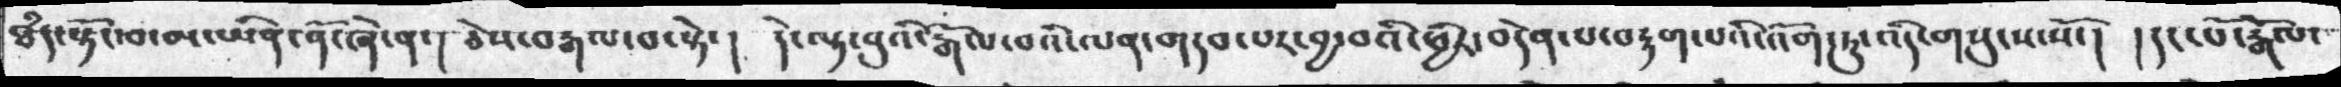ཐཾད་སྟོང་བ་མ་ཡིན་ནོ་ཞེ་ན་། ཅེས་བརྒལ་བ་སྟེ་།  དེ་ལྟ་བུའི་རྒོལ་བའི་ལན་གདབ་པར་བྱ་བའི་ཕྱིར་བདེན་པ་བརྟག་པའི་འོག་ཏུ་འདི་གསུངས་སོ་། །དང་པོ་རྒོལ་
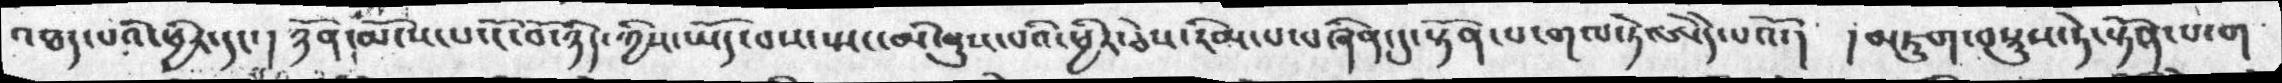འཐད་པའི་ཕྱིར་དང་། ཉོན་མོངས་པ་ངོ་བོ་ཉིད་ཀྱིས་ཡོད་པས་སྤང་མི་ནུས་པའི་ཕྱིར་ཅེས་རིམ་པ་བཞིན་དུ་སྟོན་པ་གལ་ཏེ་ཨེདེ་པའོ་།  །མཇུག་བསྡུས་ཏེ་སྟོན་པ་ག
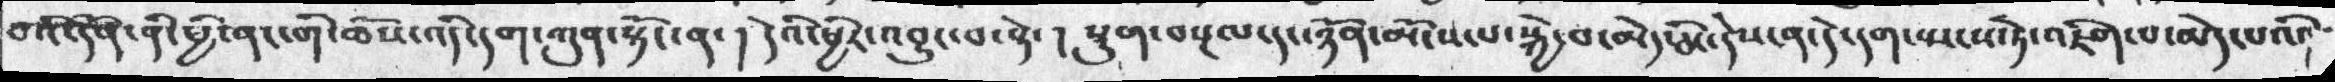བའི་དོན་ནི་ཕྱི་ནང་གི་ཆོས་འདི་དག་ཀུན་སྟོང་ན་།  དེའི་ཕྱིར་འབྱུང་བ་སྟེ་། སྡུག་བསྔལ་དང་ཉོན་མོངས་པ་སྐྱེ་བ་མེད་ཅིང་དེས་ན་དེ་དག་སྤངས་ཏེ་འཇིག་པ་མེད་པའི་
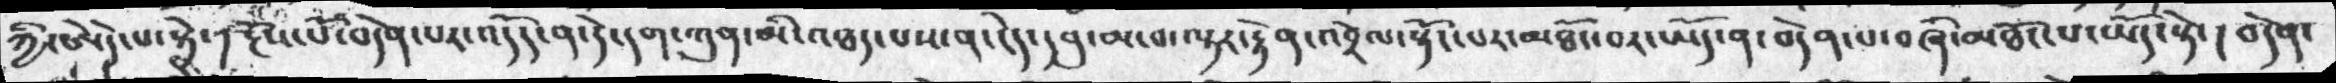ཀྱི་ཨེདེ་པ་སྟེ་། རྔོས་པོ་བདེན་པར་འདོད་ན་དེ་དག་ཀུན་མི་འཐད་པས་ན་ངེད་དབུ་མ་བ་ལྟར་རྟེན་འབྲེལ་སྟོང་པར་མཐོང་བར་ཡོད་ན་བདེན་པ་བཞི་མཐོང་པ་ཡོད་སྟེ་། བདེན་
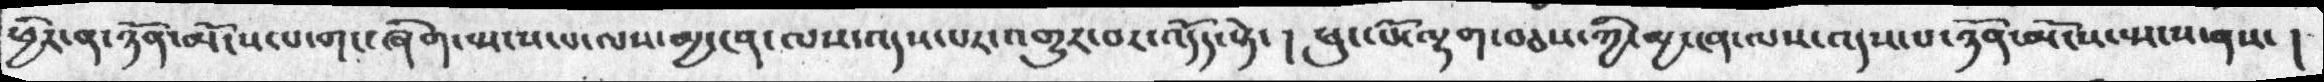ཕྱིར་ན་ཉོན་མོངས་པ་གང་ཞིག་སྤངས་པ་ལས་མྱ་ངན་ལས་འདས་པར་འགྱུར་བར་འདོད་སྟེ་། ཕུང་པོ་ལྷག་བཅས་ཀྱི་མྱ་ངན་ལས་འདས་པ་ཉོན་མོངས་སྤངས་ནས་ །
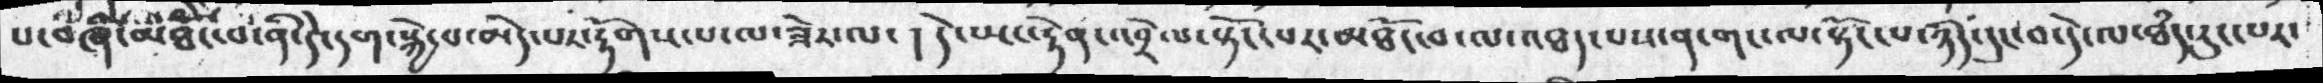པ་བཞི་མཐོང་བ་ནི་དེ་དག་སྐྱེ་བ་མེད་པར་རྟོགས་པ་ལ་ཟེར་ལ་།  དེ་ཡང་རྟེན་འབྲེལ་སྟོང་པར་མཐོང་བ་ལ་འཐད་པས་ན་གང་ལ་སྟོང་པ་ཉིད་རུང་བ་དེ་ལ་ཐཾད་རུང་པར་
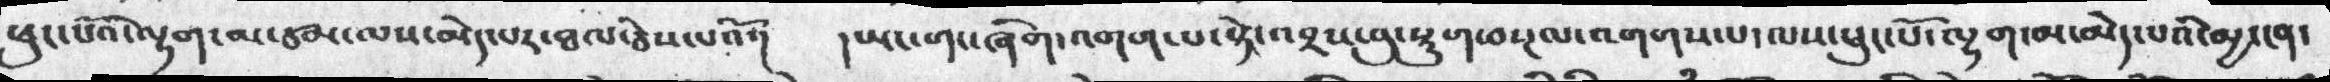ཕུང་པོའི་ལྷག་མ་ཙམ་ལས་མེད་པར་ཐལ་ཅེས་པའོ་།  །ཡང་གང་ཞིག་འགག་པ་སྟེ་འབྲས་བུ་སྡུག་བསྔལ་འགགས་པ་ལས་ཕུང་པོ་ལྷག་མ་མེད་པའི་མྱ་ངན་
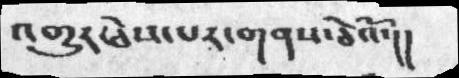འགྱུར་ཅེས་པར་གནས་ཅེའོ་།།
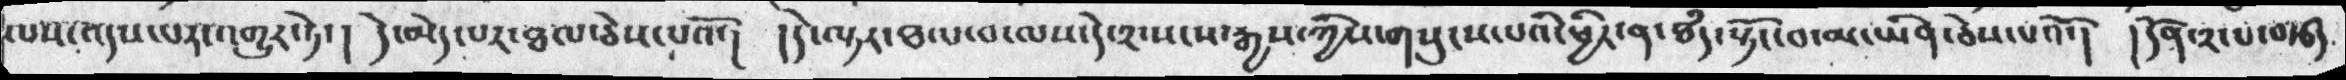ལས་འདས་པར་འགྱུར་ཏེ་། དེ་མེད་པར་ཐལ་ཅེས་པའོ་།  །དེ་ལྟར་ཐལ་བ་ལས་དེ་༢་སངས་རྒྱས་ཀྱིས་གསུངས་པའི་ཕྱིར་ན་ཐཾད་སྟོང་བ་མ་ཡིན་ཅེས་པའོ་། །དོན་༢་པ་བརྩད
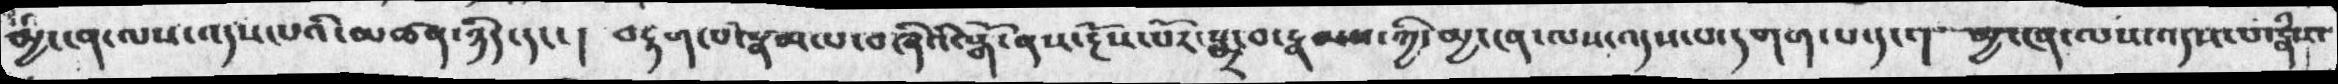མྱ་ངན་ལས་འདས་པའི་མཚན་ཉིད་དང་།  བརྟག་པ་རྣམ་པ་བཞིའི་སྒོ་ནས་རྔོས་པོར་སྨྲ་བ་རྣམས་ཀྱི་མྱ་ངན་ལས་འདས་པ་དགག་པ་དང་།  མྱ་ངན་ལས་འདས་པ་རྣཾས་
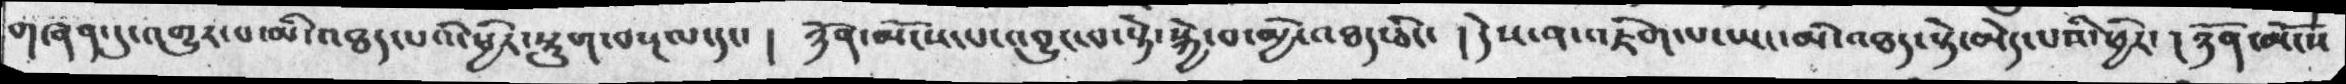གཞན་དུ་འགྱུར་བ་མི་འཐད་པའི་ཕྱིར་སྡུག་བསྔལ་དང་།  ཉོན་མོངས་པ་འབྱུང་བ་སྟེ་སྐྱེ་བ་མྱི་འཐད་ཅིང་།  དེས་ན་འཇིག་པ་ཡང་མི་འཐད་སྟེ་མེད་པའི་ཕྱིར་། ཉོན་མོངས
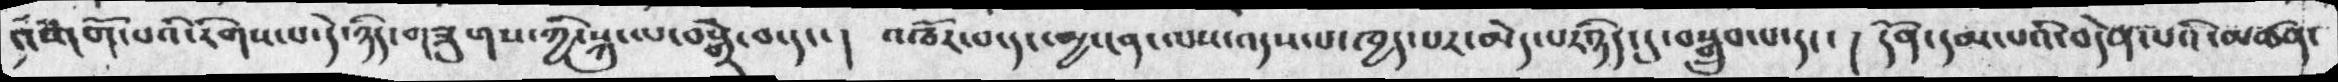འགོག་པའི་རིགས་པ་དེ་ཉིད་གཟུགས་ཀྱི་སྐུ་ལ་བསྒྲེ་བ་དང་།  འཁོར་བ་དང་མྱ་ངན་ལས་འདས་པ་ཁྱད་པར་མེད་པར་ཉིད་དུ་བསྒྲུབ་པ་དང་། དོན་དམ་པའི་བདེན་པའི་མཚན་
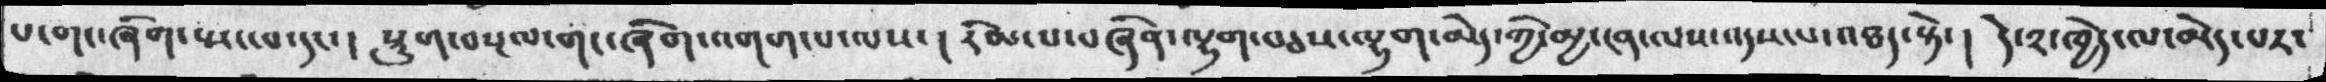པ་གང་ཞིག་སྤང་པ་དང་།  སྡུག་བསྔལ་གང་ཞིག་འགག་པ་ལས་།  རིམ་པ་བཞིན་ལྷག་བཅས་ལྷག་མེད་ཀྱི་མྱ་ངན་ལས་འདས་པ་འཐད་སྟེ་།  དེ་༢་ཁྱེད་ལ་མེད་པར་
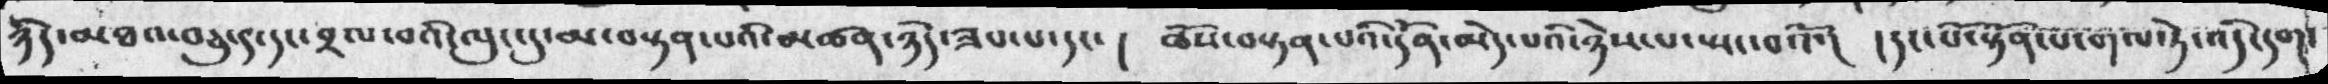ཉིད་མཐའ་བཅུ་༩་དང་བྲལ་བའི་ལུང་དུ་མ་བསྟན་པའི་མཚན་ཉིད་ཟབ་པ་དང་།  ཆོས་བསྟན་པའི་དོན་མེད་པའི་ཉེས་པ་སྤང་བའོ་། །དང་པོ་སྟོན་པ་གལ་ཏེ་འདི་དག་
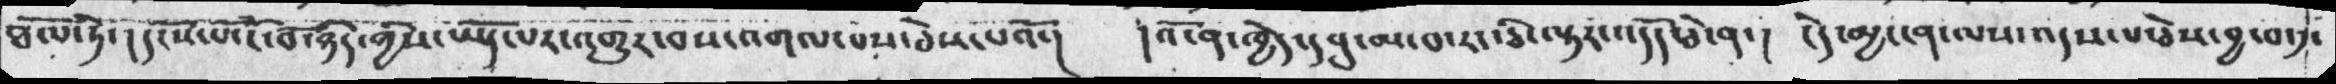ཐལ་ཏེ་། དངོས་པོ་ངོ་བོ་ཉིད་ཀྱིས་ཡོད་པར་འགྱུར་བས་འགལ་བས་ཅེས་པའོ་།   །འོ་ན་ཁྱེད་དབུ་མ་པ་རང་ཅི་ལྟར་འདོད་ཅེ་ན་། ངེད་མྱ་ངན་ལས་འདས་པ་ཅེས་བྱ་བ་༡་
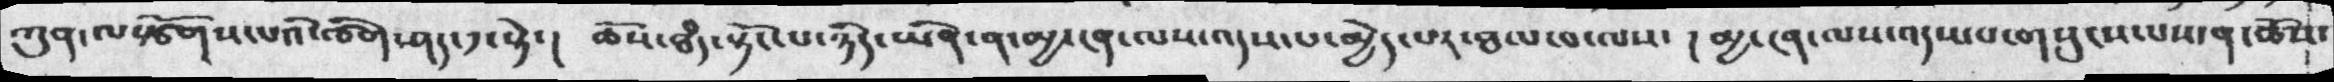ཀུན་ལསྩོགས་པའི་ཚིག་ཤད་༡་སྟེ་།  ཆོས་ཐཾད་སྟོང་པ་ཉིད་ཡིན་ན་མྱ་ངན་ལས་འདས་པ་མྱེད་པར་ཐལ་བ་ལས་། མྱ་ངན་ལས་འདས་པ་གསུངས་པས་ན་ཆོས་
